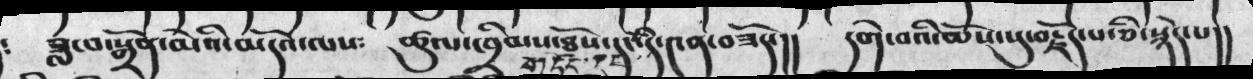༴  ཟླ་བ་སྒྲོན་མེའི་མདོ་ལས༴   ཚུལ་ཁྲིམས་ཐོས་གདོང་དང་དེ་༤ན་བཟོད་།།   དགེ་བའི་ཆོས་སུ་བརྗོད་པ་ནི་སྙེད་པ།།
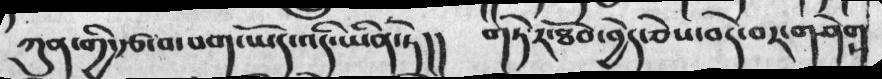ཀུན་གྱི་རྩ་བ་བག་ཡོད་འདི་ཡིན་ཏེ།། གཏེར་ཐོབ་བྱེད་ཅེས་བདེ་བར་གཤེག
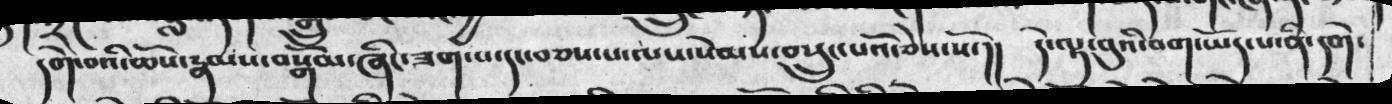དགེ་བའི་ཆོས་རྣམས་བསྒོམ་ཞིང་ཟག་པ་དང་བཅས་པ་ལས་སེམས་བསྲུང་པའོ་ཅེས་སོ་།།  དེ་ལྟ་བུའི་བག་ཡོད་པ་ནི་དགེ་
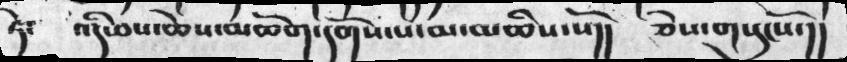ཏེ༴ འདི་བས་ཆེས་མཆོག་དགོས་པ་མ་མཆིས་སོ།། ཅེས་གསུངསོ་།།
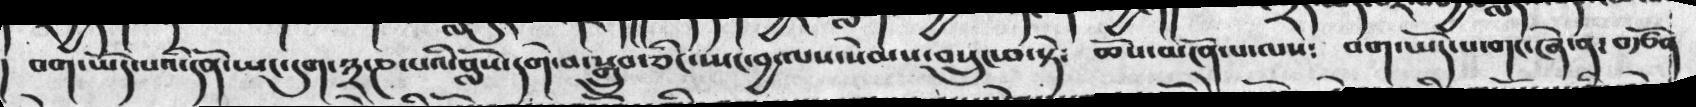བག་ཡོད་པའི་དོན་ཡང་དུག་༣་ཎ་པའི་བློས་དགེ་བ་སྒྲུབ་ཅིང་ཡང་བྱ་ལས་སེམས་བསྲུང་བ་སྟེ༴   ཆོས་མངོན་པ་ལས༴   བག་ཡོད་པ་གང་ཞེ་ན་བརྩོན
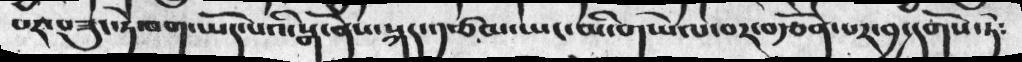པར་བཟུང་ཏེ་བག་ཡོད་པའི་སྒོ་ནས་སྐད་༡་ཙམ་ཡང་མི་གཡེལ་བར་བརྩོན་པར་བྱ་དགོས་ཏེ༴
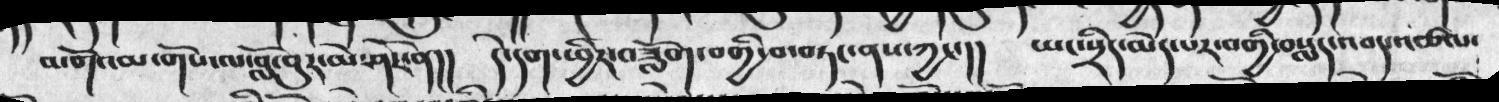མགོའམ་གོས་ལ་བློ་བུར་མེ་ཤོར་ན།། དེ་དག་ཕྱིར་བཟློག་བགྱི་བ་བཏང་ནས་ཀྱང་།། ཡང་སྲིད་མེད་པར་བགྱི་བསླད་འབད་འཚལ་
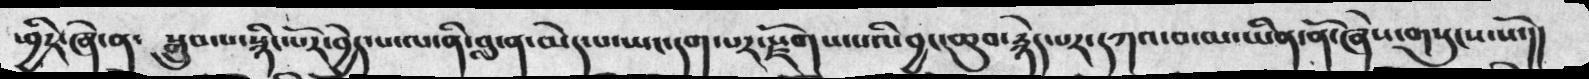ཕྱིར་ཞེ་ན༴ སྒྲུབ་པ་སྙིང་པོར་བྱེད་པ་ལ་ནི་བླ་ན་མེད་པ་ཡང་དག་པར་སྫོགས་པའི་བྱང་ཆུབ་རྙེད་པར་དཀའ་བ་མ་ཡིན་ནོ་ཞེས་གཞུངས་སོ་།།
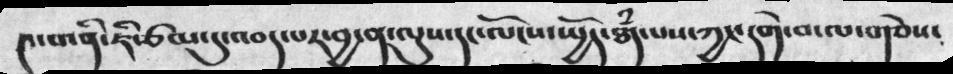༤་པ་ནི་ཇི་ཙམ་དུ་འབད་པར་བྱ་ན་ལུས་དང་ལོངས་སྤྱོད་ཐཾད་པས་ཀྱང་དགེ་བ་ལ་གཅེས་
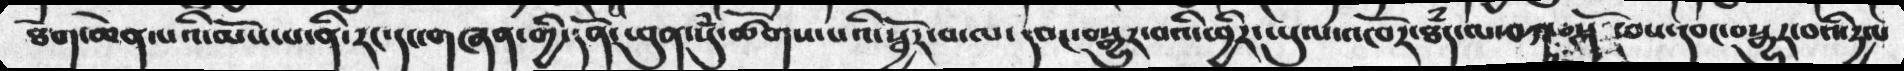ཐེག་ཆེན་པའི་མོས་པ་ནི་རང་དང་གཞན་གྱི་དོན་ཕུན་སུཾ་ཚོགས་པའི་སྦྱོར་བ་ལ་དབང་བསྒྱུར་བའི་ཕྱིར་ཡུལ་འཁོར་ཐཾད་ལ་བཀ་ཅཌོ།   ཕས་དབང་བསྒྱུར་བའི་དྱལ
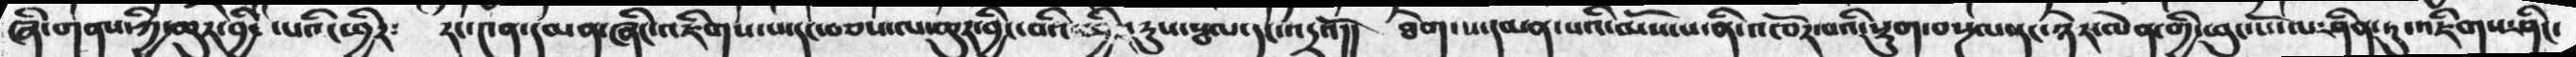ཞི་གནས་ཀྱི་ཆུར་བྱིང་པའི་ཕྱིར༴   རང་༤ན་དམན་ཞིང་འཇིགས་པ་དང་བཅས་པ་ཆུར་བྱིང་བའི་ཕྱིར་རུས་སྦལ་དང་འདྲའོ།།   ཐེག་པ་དམན་པའི་མོས་པ་ནི་འཁོར་བའི་སྡུག་བསྔལ་དང་ཉེར་ལེན་གྱི་ཕུང་པོ་ལ་ཤིན་ཏུ་འཇིགས་ཤིང་
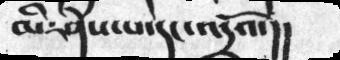མི་ཤེས་པ་དང་འདྲའོ་།།
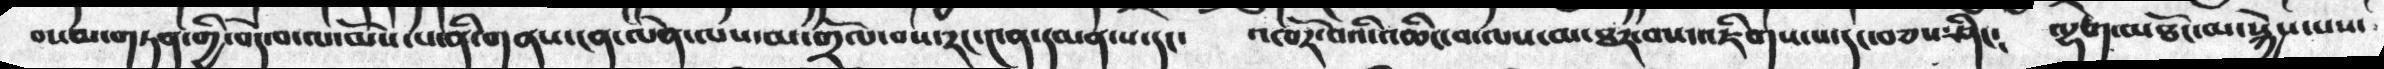བསམ་གཏན་གྱི་བདེ་བ་ལ་མོས་པ་ནི་གནས་ངན་ལེན་ལས་མ་གྲོལ་བས་རང་༤ན་དམན་པ་དང་  འཁོར་བའི་འཆིང་བ་ལས་མ་ཐར་བས་འཇིགས་པ་དང་བཅས་ཤིང༴  ལྷག་མཐོང་མ་སྐྱེས་པས་
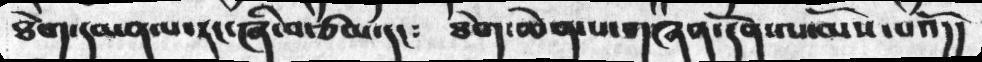ཐེག་དམན་པ་དང་ཞི་བ་ཙམ་དང༴  ཐེག་ཆེན་པ་གཞན་དོན་ལ་མོས་པའོ།།
